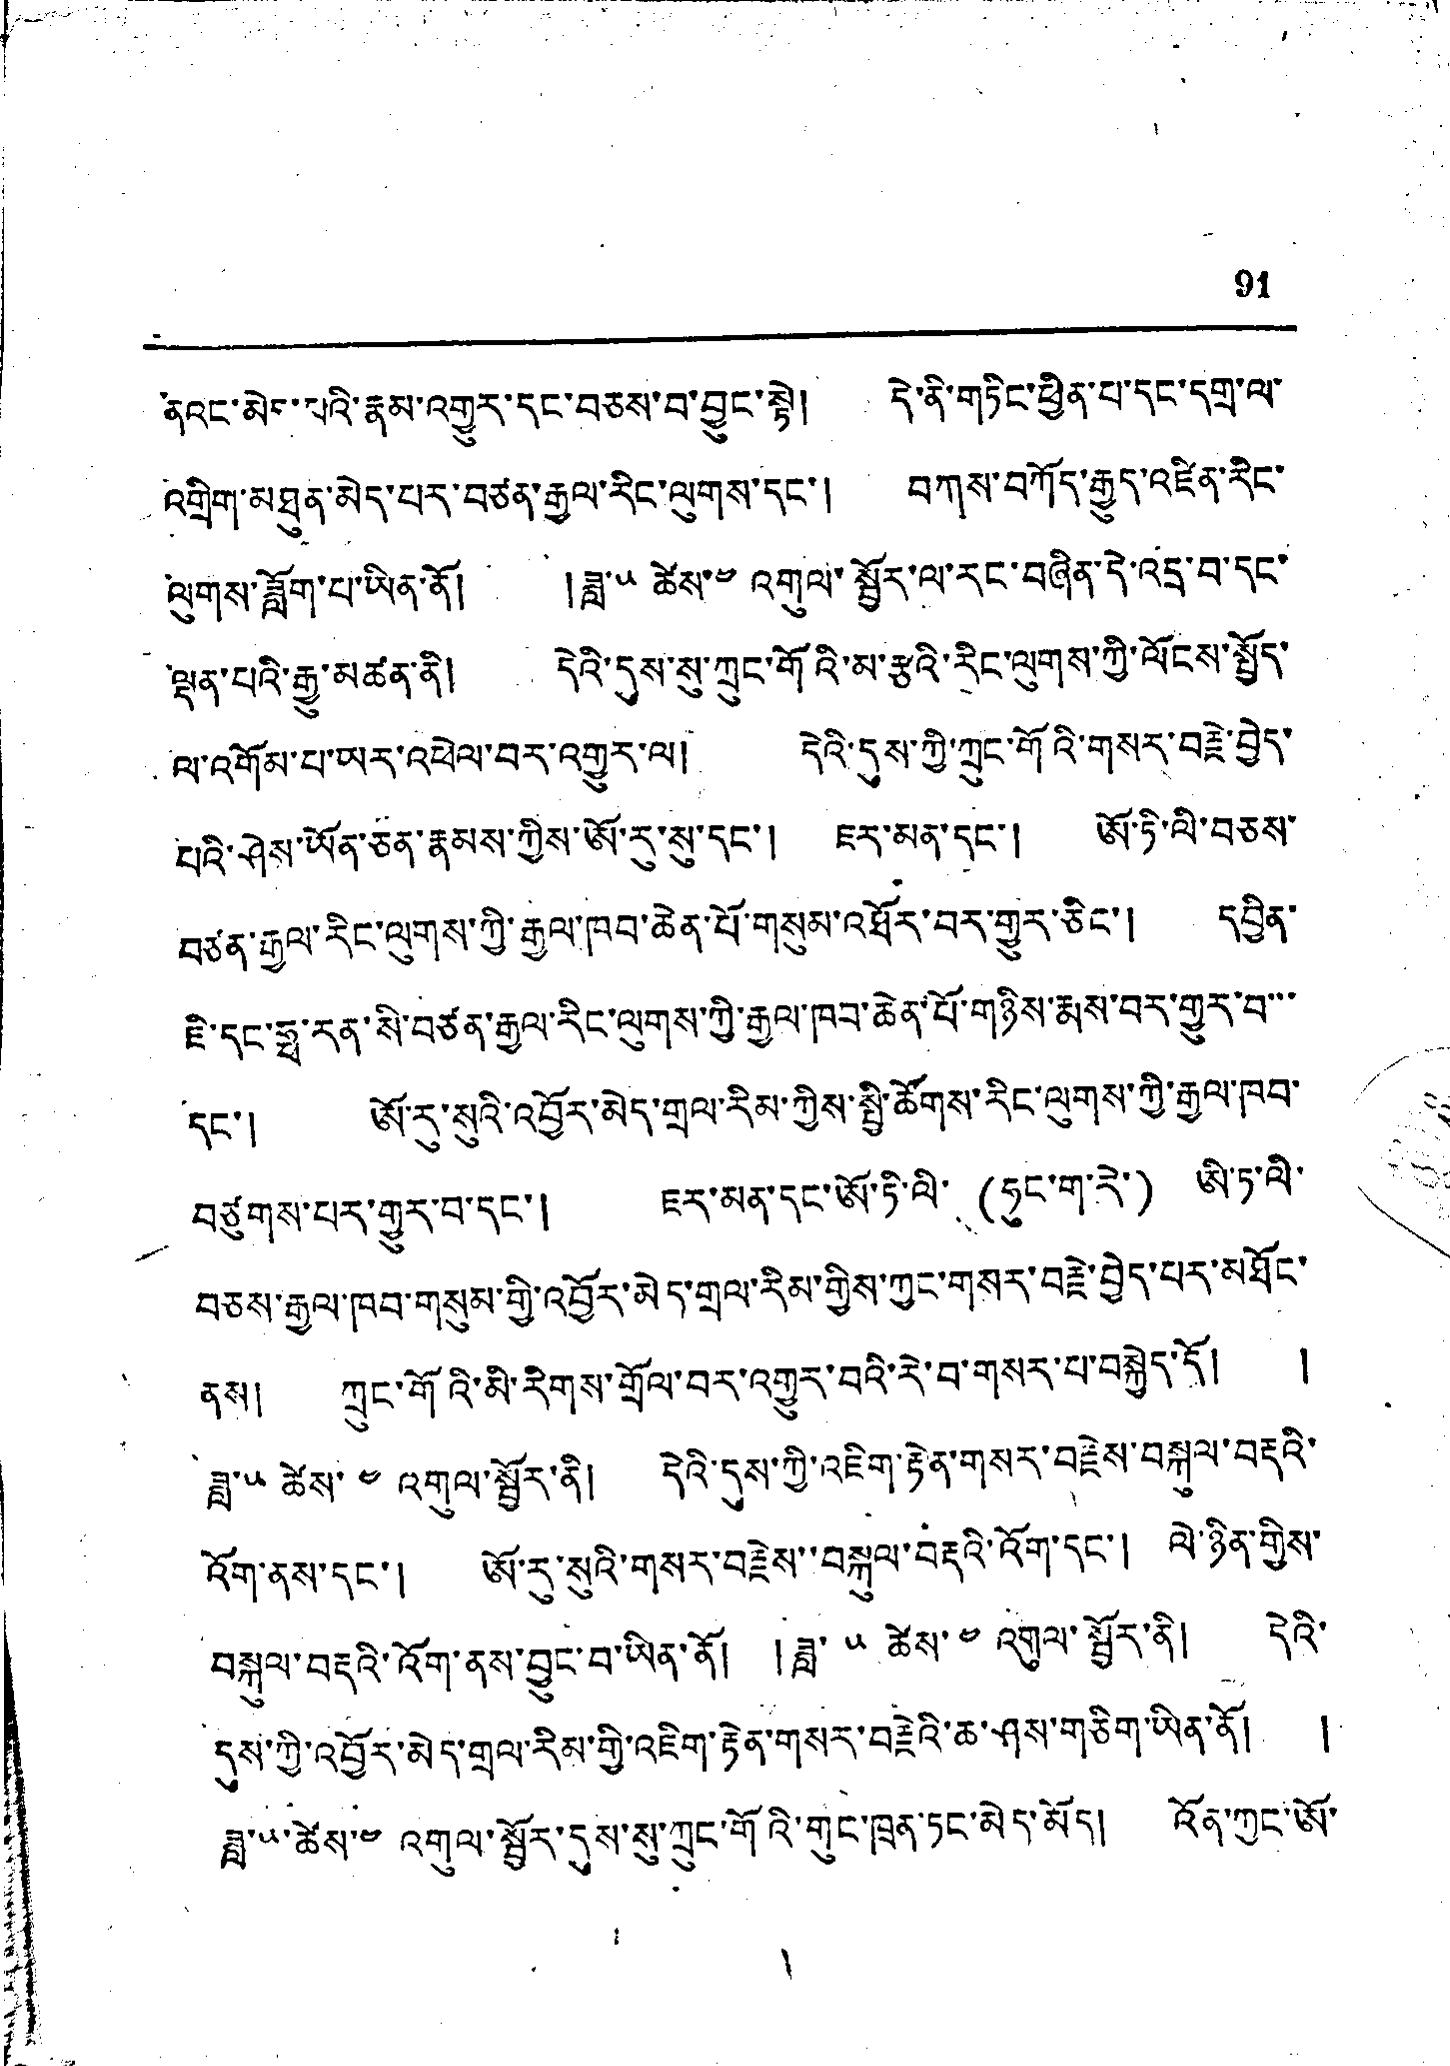91
ནའང་མེད་པའི་རྣམ་འགྱུར་དང་བཅས་བུ་བྱུང་སྟེ། དེ་ནི་གཏིང་ཕྱིན་པ་དང་དགྲ་ལ་
འགྲིག་མཐུན་མེད་པར་བཙན་རྒྱལ་རིང་ལུགས་དང་། བཀས་བཀོད་རྒྱུད་འཛིན་རིང་
ལུགས་ཟློག་པ་ཡིན་ནོ། །ཟླ་༥ ཚེས་༤ འགུལ་སྦྱོར་ལ་རང་བཞིན་དེ་འདྲ་བ་དང་
ལྡན་པའི་རྒྱུ་མཚན་ནི། དེའི་དུས་སུ་ཀྲུང་གོའི་མ་རྩའི་རིང་ལུགས་ཀྱི་ལོངས་སྤྱོད་
ལ་འགོམ་པ་ཡར་འཕེལ་བར་འགྱུར་ལ། དེའི་དུས་ཀྱི་ཀྲུང་གོའི་གསར་བརྗེ་བྱེད་
པའི་ཤེས་ཡོན་ཅན་རྣམས་ཀྱིས་ཨོ་རུ་སུ་དང་། ཇར་མན་དང་། ཨོ་ཏི་ལི་བཅས་
བཙན་རྒྱལ་རིང་ལུགས་ཀྱི་རྒྱལ་ཁབ་ཆེན་པོ་གསུམ་འཐོར་བར་གྱུར་ཅིང་། དབྱིན་
ཇི་དང་ཧྥ་རན་སི་བཙན་རྒྱལ་རིང་ལུགས་ཀྱི་རྒྱལ་ཁབ་ཆེན་པོ་གཉིས་རྨས་བར་གྱུར་བ་་
དང་། ཨོ་རུ་སུའི་འབྱོར་མེད་གྲལ་རིམ་ཀྱིས་སྤྱི་ཚོགས་རིང་ལུགས་ཀྱི་རྒྱལ་ཁབ་
བཙུགས་པར་གྱུར་བ་དང་། ཇར་མན་དང་ཨོ་ཏི་ལི་ (ཧུང་ག་རེ་) ཨི་ཏ་ལི་
བཅས་རྒྱལ་ཁབ་གསུམ་གྱི་འབྱོར་མེད་གྲལ་རིམ་གྱིས་ཀྱང་གསར་བརྗེ་བྱེད་པར་མཐོང་
ནས། ཀྲུང་གོའི་མི་རིགས་གྲོལ་བར་འགྱུར་བའི་རེ་བ་གསར་པ་བསྐྱེད་དོ། །
ཟླ་༥ ཚེས་ ༤ འགུལ་སྦྱོར་ནི། དེའི་དུས་ཀྱི་འཇིག་རྟེན་གསར་བརྗེས་བསྐུལ་བརྡའི་
འོག་ནས་དང་། ཨོ་རུ་སུའི་གསར་བརྗེས་བསྐུལ་བརྡའི་འོག་དང་། ལེ་ཉིན་གྱིས་
བསྐུལ་བརྡའི་འོག་ནས་བྱུང་བ་ཡིན་ནོ། །ཟླ་༥ ཚེས་༤ འགུལ་སྦྱོར་ནི། དེའི་
དུས་ཀྱི་འབྱོར་མེད་གྲལ་རིམ་གྱི་འཇིག་རྟེན་གསར་བརྗེའི་ཆ་ཤས་གཅིག་ཡིན་ནོ། །
ཟླ་༥་ཚེས་༤ འགུལ་སྦྱོར་དུས་སུ་ཀྲུང་གོའི་གུང་ཁྲན་ཏང་མེད་མོད། འོན་ཀྱང་ཨོ་
